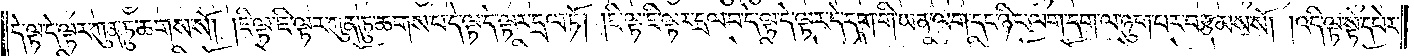དེ་ལྟ་དེ་ལྟར་ཀུན་ཏུ་ཆགས་སོ། །ཇི་ལྟ་ཇི་ལྟར་ཀུན་ཏུ་ཆགས་པ་དེ་ལྟ་དེ་ལྟར་དྲལ་ཏོ། །ཇི་ལྟ་ཇི་ལྟར་དྲལ་བ་དེ་ལྟ་དེ་ལྟར་དེ་དག་གི་ཡན་ལག་དང་ཉིང་ལག་དག་ལ་ཉུག་པར་བརྩམས་སོ། །འདི་ལྟ་སྟེ་དཔེར་
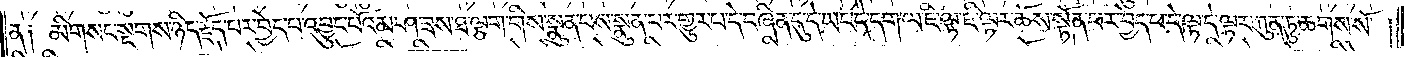ན༑ མི་གསང་སྔགས་ཉིད་རྗོད་པར་བྱེད་པ་འབྱུང་པོའམ་ཤ་ཟས་ཐ་ལྕག་གིས་སྣུན་པས་སྣུན་པར་གྱུར་པ་དེ་བཞིན་དུ་དེ་ཡང་དེ་དག་ལ་ཇི་ལྟ་ཇི་ལྟར་ཆོས་སྟོན་པར་བྱེད་པ་དེ་ལྟ་དེ་ལྟར་ཀུན་ཏུ་ཆགས་སོ། །
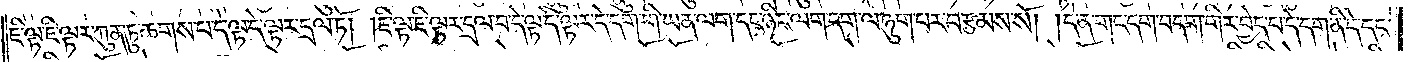ཇི་ལྟ་ཇི་ལྟར་ཀུན་ཏུ་ཆགས་པ་དེ་ལྟ་དེ་ལྟར་དྲལ་ཏོ། །ཇི་ལྟ་ཇི་ལྟར་དྲལ་བ་དེ་ལྟ་དེ་ལྟར་དེ་དག་གི་ཡན་ལག་དང་ཉིང་ལག་དག་ལ་ཉུག་པར་བརྩམས་སོ། །དེ་ན་གང་དག་བདག་གིར་བྱེད་པ་དེ་དག་ནི་དེ་དང་
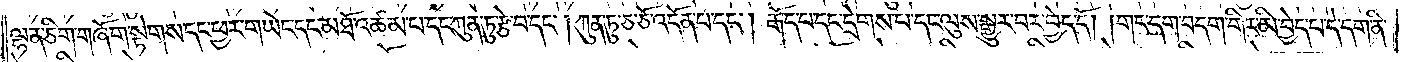ལྷན་ཅིག་གཞོག་སྟེགས་དང་ཕྱག་གཡེང་དང་མཐོ་འཚམ་པ་དང་ཀུན་ཏུ་རྩེ་བ་དང༌། ཀུན་ཏུ་ཅ་ཅོ་འདོན་པ་དང༌། རྒོད་པ་དང་དྲེགས་པ་དང་ལུས་སྒྱུར་བར་བྱེད་དོ། །གང་དག་བདག་གིར་མི་བྱེད་པ་དེ་དག་ནི་
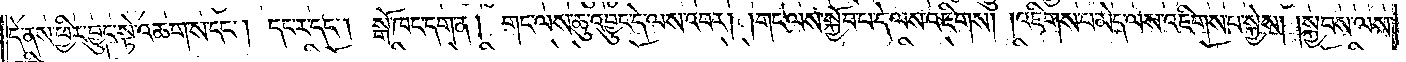དེ་ནས་ཕྱིར་བྱུང་སྟེ་འཆག་ས་དང༌། དང་ར་དང༌། སྒོ་ཁང་དག་ན། གང་ལས་ཆུ་འབྱུང་དེ་ལས་འབར། གང་ལས་སྐྱོབ་པ་དེ་ལས་འཇིགས། །འཇིགས་པ་མེད་ལས་འཇིགས་པ་སྐྱེས། །སྐྱབས་ལས་
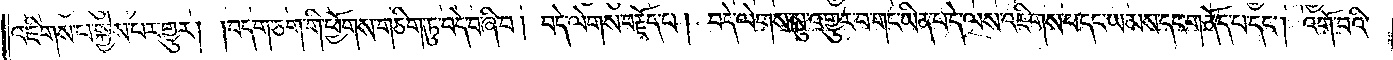འཇིགས་པ་སྐྱེས་པར་གྱུར། །བདག་ཅག་གི་ཕྱོགས་གཅིག་ཏུ་བདེ་བ་ཞི་བ། བདེ་ལེགས་བརྗོད་པ། བདེ་ལེགས་སུ་འགྱུར་བ་གང་ཡིན་པ་དེ་ལས་འཇིགས་པ་དང་ཡམས་དང་གནོད་པ་དང༌། འགོ་བའི་
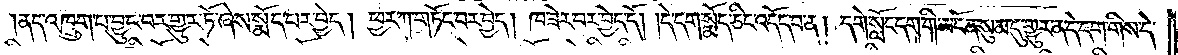།ནད་འཁྲུག་པ་བྱུང་བར་གྱུར་ཏོ་ཞེས་སྨོད་པར་བྱེད། ཕྱར་ཀ་གཏོང་བར་བྱེད། ཁ་ཟེར་བར་བྱེད་དོ། །དེ་དག་སྨོད་ཅིང་འདོད་པ་ན། དགེ་སློང་དག་གི་མངོན་སུམ་དུ་གྱུར་ན་དེ་དག་གིས་དེ་
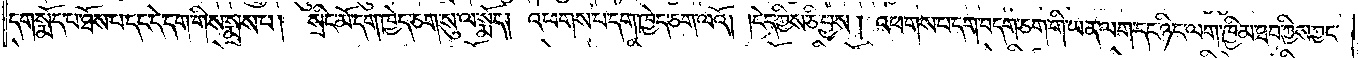དག་སྨོད་པ་ཐོས་པ་དང་དེ་དག་གིས་སྨྲས་པ། སྲིང་མོ་དག་ཁྱེད་ཅག་སུ་ལ་སྨོད། འཕགས་པ་དག་ཁྱེད་ཅག་ལའོ། །ངེད་ཀྱིས་ཅི་བྱས། འཕགས་པ་དག་བདག་ཅག་གི་ཡན་ལག་དང་ཉིང་ལག་ཁྱིམ་ཐབ་ཀྱིས་ཀྱང་
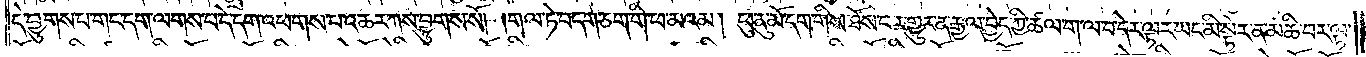དེ་བྱུགས་པ་གང་དག་ལགས་པ་དེ་དག་འཕགས་པ་འཆར་ཀས་བྱུགས་སོ། །གལ་ཏེ་བདག་ཅག་གི་ཕ་མའམ། ཕུ་ནུ་མོ་དག་གིས་ཐོས་པར་གྱུར་ན་རྒྱལ་བྱེད་ཀྱི་ཚལ་ག་ལ་བ་དེར་ལྟར་ཡང་མི་སྟེར་ན་མཆི་བར་ལྟ་
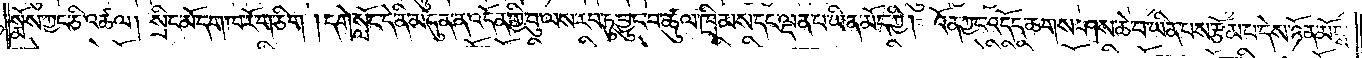སྨོས་ཀྱང་ཅི་འཚལ། སྲིང་མོ་དག་ཁ་རོ་གཅིག །དགེ་སློང་དེ་ནི་མདུན་ན་འདོན་གྱི་བུ་ལས་རབ་ཏུ་བྱུང་བ་ཚུལ་ཁྲིམས་དང་ལྡན་པ་ཡིན་མོད་ཀྱི། འོན་ཀྱང་འདོད་ཆགས་ཤས་ཆེ་བ་ཡིན་པས་རྩོམ་པ་དེས་ཉོན་མོངས་
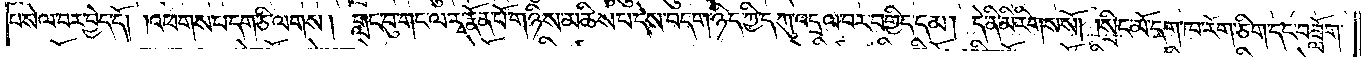པ་སེལ་བར་བྱེད་དོ། །འཕགས་པ་དག་ཅི་ལགས། གླང་བུ་གང་ལ་རྭ་རྣོན་པོ་གཉིས་མཆིས་པ་དེས་བདག་ཉིད་ཀྱི་དཀུ་འདྲལ་བར་བགྱིད་དམ། དེ་ནི་མི་རིགས་སོ། །སྲིང་མོ་དག་ཁ་རོག་ཅིག་དང་བཟློག་
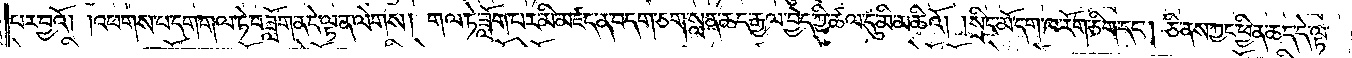པར་བྱའོ། །འཕགས་པ་དག་གལ་ཏེ་བཟློག་ན་དེ་ལྟ་ན་ལེགས། གལ་ཏེ་ཟློག་པར་མི་མཛད་ན་བདག་ཅག་སླན་ཆད་རྒྱལ་བྱེད་ཀྱི་ཚལ་དུ་མི་མཆིའོ། །སྲིང་མོ་དག་ཁ་རོག་ཅིག་དང༌། ཅི་ནས་ཀྱང་ཕྱིན་ཆད་དེ་ལྟ་
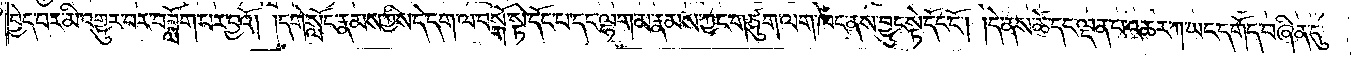བྱེད་པར་མི་འགྱུར་བར་བཟློག་པར་བྱའོ། །དགེ་སློང་རྣམས་ཀྱིས་དེ་དག་ལ་བསྒོ་སྟེ་དོང་པ་དང་ལྷག་མ་རྣམས་ཀྱང་གཙུག་ལག་ཁང་ནས་བྱུང་སྟེ་དོང་ངོ༌། །དེ་ནས་ཚེ་དང་ལྡན་པ་འཆར་ཀ་ཡང་དགོད་བཞིན་དུ་
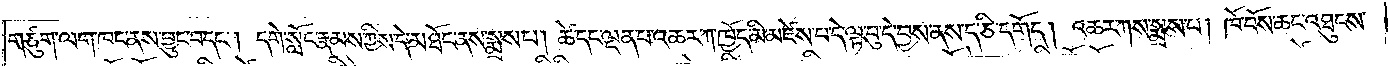གཙུག་ལག་ཁང་ནས་བྱུང་བ་དང༌། དགེ་སློང་རྣམས་ཀྱིས་དེ་མཐོང་ནས་སྨྲས་པ། ཚེ་དང་ལྡན་པ་འཆར་ཀ་ཁྱོད་མི་མཛེས་པ་དེ་ལྟ་བུ་དེ་བྱས་ནས་ད་ཅི་དགོད། འཆར་ཀས་སྨྲས་པ། ཁོ་བོས་ཆང་འཐུངས་
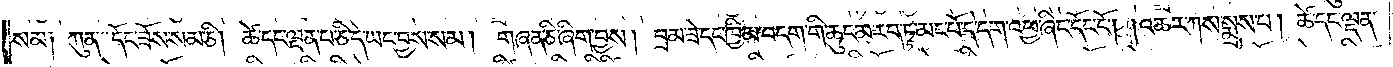སམ༑ ཀུན་དོང་ཟོས་སམ་ཅི། ཚེ་དང་ལྡན་པ་ཅི་དེ་ཡང་བྱས་སམ། གཞན་ཅི་ཞིག་བྱས། བྲམ་ཟེ་དང་ཁྱིམ་བདག་གི་ཆུང་མ་རབ་ཏུ་མང་པོ་དེ་དག་འཕྱ་ཞིང་དོང་ངོ༌། །འཆར་ཀས་སྨྲས་པ། ཚེ་དང་ལྡན་
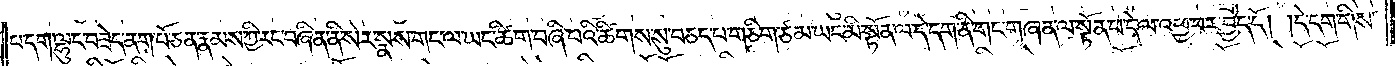པ་དག་ལྷུང་བཟེད་ནག་པོ་ཅན་རྣམས་ཀྱི་རང་བཞིན་ནི་སེར་སྣས་གང་ལ་ཡང་ཚིག་བཞི་པའི་ཚིགས་སུ་བཅད་པ་གཅིག་ཙམ་ཡང་མི་སྟོན་ལ་དེ་དག་ནི་གང་གཞན་ལ་སྟོན་པ་དེ་ལ་འཕྱ་བར་བྱེད་དོ། །དེ་དག་གིས་
